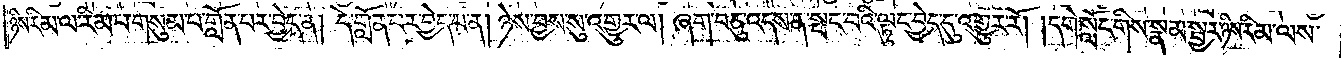ཉིས་རིམ་ལ་རིམ་པ་གསུམ་པ་གློན་པར་བྱེད་ན། དེ་གློན་པར་བྱེད་པ་ན། ཉེས་བྱས་སུ་འགྱུར་ལ། ཞག་བཅུ་འདས་ན་སྤང་བའི་ལྟུང་བྱེད་དུ་འགྱུར་རོ། །དགེ་སློང་གིས་སྣམ་སྦྱར་ཉིས་རིམ་ལས་
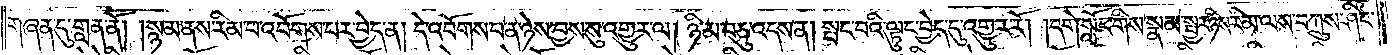གཞན་དུ་གླན་ནོ། །སྙམ་ནས་རིམ་པ་འབོགས་པར་བྱེད་ན། དེ་འབོགས་པ་ན་ཉེས་བྱས་སུ་འགྱུར་ལ། ཉི་མ་བཅུ་འདས་ན། སྤང་བའི་ལྟུང་བྱེད་དུ་འགྱུར་རོ། །དགེ་སློང་གིས་སྣམ་སྦྱར་ཉིས་རིམ་ལས་བཀྲུས་ཤིང་
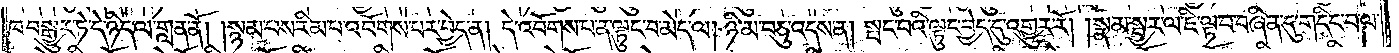ཁ་བསྒྱུར་ཏེ་དེ་ཉིད་ལ་གླན་ནོ། །སྙམ་པས་རིམ་པ་འབོགས་པར་བྱེད་ན། དེ་འབོགས་པ་ན་ལྟུང་བ་མེད་ལ། ཉི་མ་བཅུ་འདས་ན། སྤང་བའི་ལྟུང་བྱེད་དུ་འགྱུར་རོ། །སྣམ་སྦྱར་ལ་ཇི་ལྟ་བ་བཞིན་དུ་གདིང་བ་ལ་
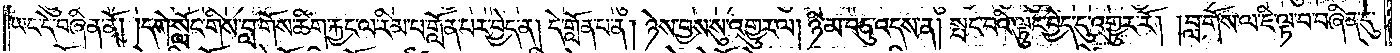ཡང་དེ་བཞིན་ནོ། །དགེ་སློང་གིས་བླ་གོས་ཆིག་རྐྱང་ལ་རིམ་པ་གློན་པར་བྱེད་ན། དེ་གློན་པ་ན། ཉེས་བྱས་སུ་འགྱུར་ལ། ཉི་མ་བཅུ་འདས་ན། སྤང་བའི་ལྟུང་བྱེད་དུ་འགྱུར་རོ། །བླ་གོས་ལ་ཇི་ལྟ་བ་བཞིན་དུ་
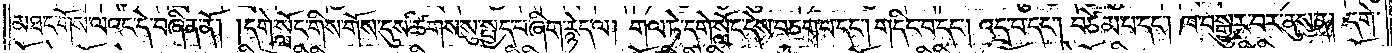མཐང་གོས་ལའང་དེ་བཞིན་ནོ། །དགེ་སློང་གིས་གོས་དུས་ཚིགས་སུ་སྤྱད་པ་ཞིག་རྙེད་ལ། གལ་ཏེ་དགེ་སློང་དེས་བཅག་པ་དང༌། གདིང་བ་དང༌། འདྲ་བ་དང༌། བཙེམ་པ་དང༌། ཁ་བསྒྱུར་བར་ནུས་ན། དགེ་
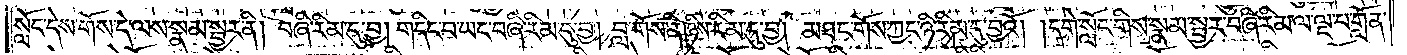སློང་དེས་གོས་དེ་ལས་སྣམ་སྦྱར་ནི། བཞི་རིམ་དུ་བྱ། གདིང་བ་ཡང་བཞི་རིམ་དུ་བྱ། བླ་གོས་ནི། ཉིས་རིམ་དུ་བྱ། མཐང་གོས་ཀྱང་ཉི་རིམ་དུ་བྱའོ། །དགེ་སློང་གིས་སྣམ་སྦྱར་བཞི་རིམ་ལ་ལྔ་པ་གློན་
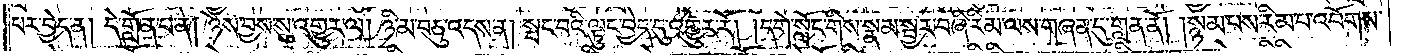པར་བྱེད་ན། དེ་གློན་པ་ན། ཉེས་བྱས་སུ་འགྱུར་ལ། ཉི་མ་བཅུ་འདས་ན། སྤང་བའི་ལྟུང་བྱེད་དུ་འགྱུར་རོ། །དགེ་སློང་གིས་སྣམ་སྦྱར་བཞི་རིམ་ལས་གཞན་དུ་གླན་ནོ། །སྙམ་པས་རིམ་པ་འབོགས་
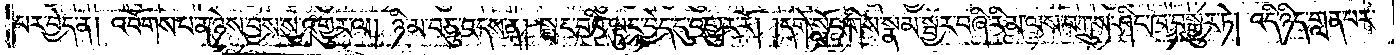པར་བྱེད་ན། འབོགས་པ་ན་ཉེས་བྱས་སུ་འགྱུར་ལ། ཉི་མ་བཅུ་འདས་ན། སྤང་བའི་ལྟུང་བྱེད་དུ་འགྱུར་རོ། །དགེ་སློང་གིས་སྣམ་སྦྱར་བཞི་རིམ་ལས་བཀྲུས་ཤིང་ཁ་བསྒྱུར་ཏེ། འདི་ཉིད་གླན་པར་
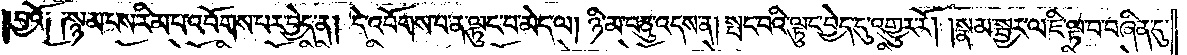བྱའོ༑ ༑སྙམ་པས་རིམ་པ་འབོགས་པར་བྱེད་ན། དེ་འབོགས་པ་ན་ལྟུང་བ་མེད་ལ། ཉི་མ་བཅུ་འདས་ན། སྤང་བའི་ལྟུང་བྱེད་དུ་འགྱུར་རོ། །སྣམ་སྦྱར་ལ་ཇི་ལྟ་བ་བཞིན་དུ་
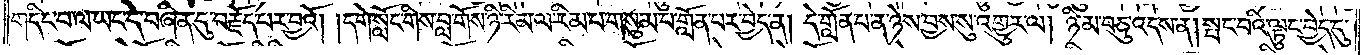གདིང་བ་ལ་ཡང་དེ་བཞིན་དུ་བརྗོད་པར་བྱའོ། །དགེ་སློང་གིས་བླ་གོས་ཉི་རིམ་ལ་རིམ་པ་གསུམ་པ་གློན་པར་བྱེད་ན། དེ་གློན་པ་ན་ཉེས་བྱས་སུ་འགྱུར་ལ། ཉི་མ་བཅུ་འདས་ན། སྤང་བའི་ལྟུང་བྱེད་དུ་
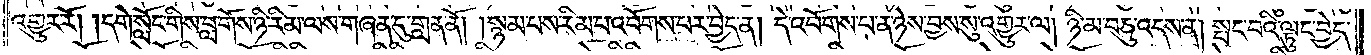འགྱུར་རོ། །དགེ་སློང་གིས་བླ་གོས་ཉི་རིམ་ལས་གཞན་དུ་གླན་ནོ། །སྙམ་པས་རིམ་པ་འབོགས་པར་བྱེད་ན། དེ་འབོགས་པ་ན་ཉེས་བྱས་སུ་འགྱུར་ལ། ཉི་མ་བཅུ་འདས་ན། སྤང་བའི་ལྟུང་བྱེད་
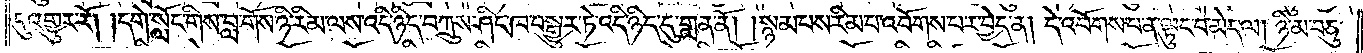དུ་འགྱུར་རོ། །དགེ་སློང་གིས་བླ་གོས་ཉི་རིམ་ལས་འདི་ཉིད་བཀྲུས་ཤིང་ཁ་བསྒྱུར་ཏེ་འདི་ཉིད་དུ་གླན་ནོ། །སྙམ་པས་རིམ་པ་འབོགས་པར་བྱེད་ན། དེ་འབོགས་པ་ན་ལྟུང་བ་མེད་ལ། ཉི་མ་བཅུ་
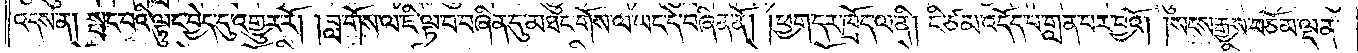འདས་ན། སྤང་བའི་ལྟུང་བྱེད་དུ་འགྱུར་རོ། །བླ་གོས་ལ་ཇི་ལྟ་བ་བཞིན་དུ་མཐང་གོས་ལ་ཡང་དེ་བཞིན་ནོ། །ཕྱག་དར་ཁྲོད་ལ་ནི། ཇི་ཙམ་འདོད་པ་གླན་པར་བྱའོ། །སངས་རྒྱས་བཅོམ་ལྡན་
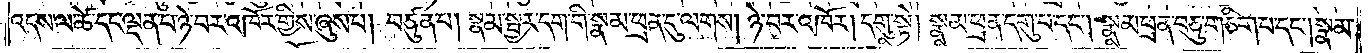འདས་ལ་ཚེ་དང་ལྡན་པ་ཉེ་བར་འཁོར་གྱིས་ཞུས་པ། བཙུན་པ། སྣམ་སྦྱར་དག་གི་སྣམ་ཕྲན་དུ་ལགས། ཉེ་བར་འཁོར། དགུ་སྟེ། སྣམ་ཕྲན་དགུ་པ་དང༌། སྣམ་ཕྲན་བཅུ་གཅིག་པ་དང༌། སྣམ་
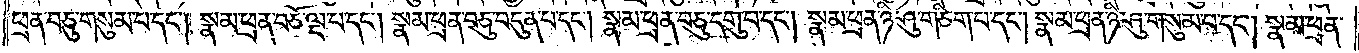ཕྲན་བཅུ་གསུམ་པ་དང༌། སྣམ་ཕྲན་བཅོ་ལྔ་པ་དང༌། སྣམ་ཕྲན་བཅུ་བདུན་པ་དང༌། སྣམ་ཕྲན་བཅུ་དགུ་པ་དང༌། སྣམ་ཕྲན་ཉི་ཤུ་གཅིག་པ་དང༌། སྣམ་ཕྲན་ཉི་ཤུ་གསུམ་པ་དང༌། སྣམ་ཕྲན་
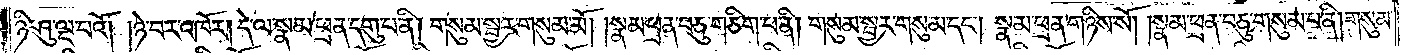ཉི་ཤུ་ལྔ་པའོ། །ཉེ་བར་འཁོར། དེ་ལ་སྣམ་ཕྲན་དགུ་པ་ནི། གསུམ་སྦྱར་གསུམ་མོ། །སྣམ་ཕྲན་བཅུ་གཅིག་པ་ནི། གསུམ་སྦྱར་གསུམ་དང༌། སྣམ་ཕྲན་གཉིས་སོ། །སྣམ་ཕྲན་བཅུ་གསུམ་པ་ནི། གསུམ་
